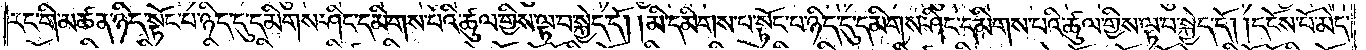རང་གི་མཚན་ཉིད་སྟོང་པ་ཉིད་དུ་དམིགས་ཤིང་དམིགས་པའི་ཚུལ་གྱིས་ལྟ་བ་སྐྱེད་དོ། །མི་དམིགས་པ་སྟོང་པ་ཉིད་དུ་དམིགས་ཤིང་དམིགས་པའི་ཚུལ་གྱིས་ལྟ་བ་སྐྱེད་དོ། །དངོས་པོ་མེད་
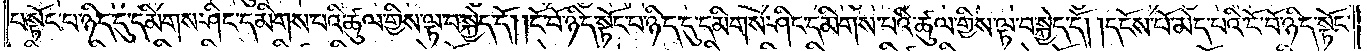པ་སྟོང་པ་ཉིད་དུ་དམིགས་ཤིང་དམིགས་པའི་ཚུལ་གྱིས་ལྟ་བ་སྐྱེད་དོ། །ངོ་བོ་ཉིད་སྟོང་པ་ཉིད་དུ་དམིགས་ཤིང་དམིགས་པའི་ཚུལ་གྱིས་ལྟ་བ་སྐྱེད་དོ། །དངོས་པོ་མེད་པའི་ངོ་བོ་ཉིད་སྟོང་
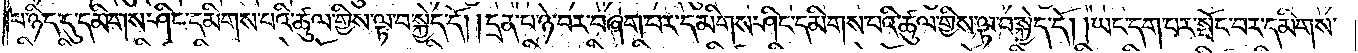པ་ཉིད་དུ་དམིགས་ཤིང་དམིགས་པའི་ཚུལ་གྱིས་ལྟ་བ་སྐྱེད་དོ། །དྲན་པ་ཉེ་བར་བཞག་པར་དམིགས་ཤིང་དམིགས་པའི་ཚུལ་གྱིས་ལྟ་བ་སྐྱེད་དོ། །ཡང་དག་པར་སྤོང་བར་དམིགས་
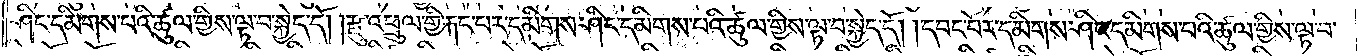ཤིང་དམིགས་པའི་ཚུལ་གྱིས་ལྟ་བ་སྐྱེད་དོ། །རྫུ་འཕྲུལ་གྱི་རྐང་པར་དམིགས་ཤིང་དམིགས་པའི་ཚུལ་གྱིས་ལྟ་བ་སྐྱེད་དོ། །དབང་པོར་དམིགས་ཤིང་དམིགས་པའི་ཚུལ་གྱིས་ལྟ་བ་
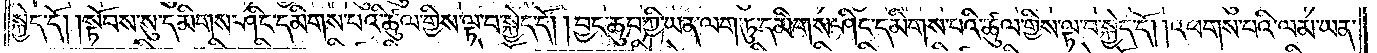སྐྱེད་དོ། །སྟོབས་སུ་དམིགས་ཤིང་དམིགས་པའི་ཚུལ་གྱིས་ལྟ་བ་སྐྱེད་དོ། །བྱང་ཆུབ་ཀྱི་ཡན་ལག་ཏུ་དམིགས་ཤིང་དམིགས་པའི་ཚུལ་གྱིས་ལྟ་བ་སྐྱེད་དོ། །འཕགས་པའི་ལམ་ཡན་
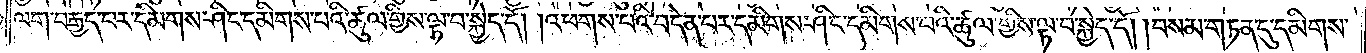ལག་བརྒྱད་པར་དམིགས་ཤིང་དམིགས་པའི་ཚུལ་གྱིས་ལྟ་བ་སྐྱེད་དོ། །འཕགས་པའི་བདེན་པར་དམིགས་ཤིང་དམིགས་པའི་ཚུལ་གྱིས་ལྟ་བ་སྐྱེད་དོ། །བསམ་གཏན་དུ་དམིགས་
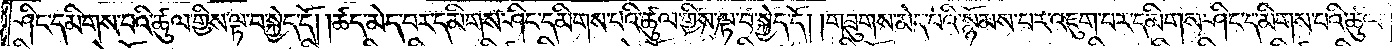ཤིང་དམིགས་པའི་ཚུལ་གྱིས་ལྟ་བ་སྐྱེད་དོ། །ཚད་མེད་པར་དམིགས་ཤིང་དམིགས་པའི་ཚུལ་གྱིས་ལྟ་བ་སྐྱེད་དོ། །གཟུགས་མེད་པའི་སྙོམས་པར་འཇུག་པར་དམིགས་ཤིང་དམིགས་པའི་ཚུལ་
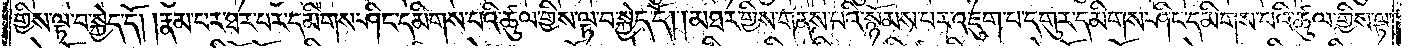གྱིས་ལྟ་བ་སྐྱེད་དོ། །རྣམ་པར་ཐར་པར་དམིགས་ཤིང་དམིགས་པའི་ཚུལ་གྱིས་ལྟ་བ་སྐྱེད་དོ། །མཐར་གྱིས་གནས་པའི་སྙོམས་པར་འཇུག་པ་དགུར་དམིགས་ཤིང་དམིགས་པའི་ཚུལ་གྱིས་ལྟ་
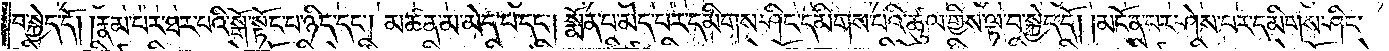བ་སྐྱེད་དོ། །རྣམ་པར་ཐར་པའི་སྒོ་སྟོང་པ་ཉིད་དང༌། མཚན་མ་མེད་པ་དང༌། སྨོན་པ་མེད་པར་དམིགས་ཤིང་དམིགས་པའི་ཚུལ་གྱིས་ལྟ་བ་སྐྱེད་དོ། །མངོན་པར་ཤེས་པར་དམིགས་ཤིང་
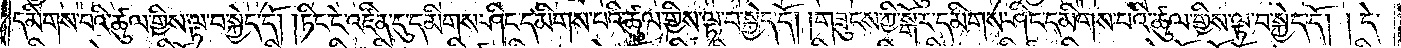དམིགས་པའི་ཚུལ་གྱིས་ལྟ་བ་སྐྱེད་དོ། །ཏིང་ངེ་འཛིན་དུ་དམིགས་ཤིང་དམིགས་པའི་ཚུལ་གྱིས་ལྟ་བ་སྐྱེད་དོ། །གཟུངས་ཀྱི་སྒོར་དམིགས་ཤིང་དམིགས་པའི་ཚུལ་གྱིས་ལྟ་བ་སྐྱེད་དོ། །དེ་
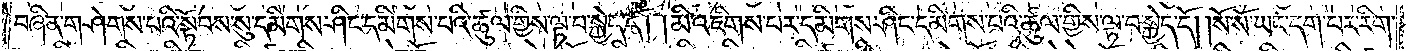བཞིན་གཤེགས་པའི་སྟོབས་སུ་དམིགས་ཤིང་དམིགས་པའི་ཚུལ་གྱིས་ལྟ་བ་སྐྱེད་དོ། །མི་འཇིགས་པར་དམིགས་ཤིང་དམིགས་པའི་ཚུལ་གྱིས་ལྟ་བ་སྐྱེད་དོ། །སོ་སོ་ཡང་དག་པར་རིག་
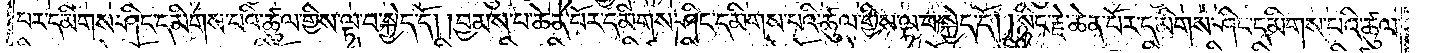པར་དམིགས་ཤིང་དམིགས་པའི་ཚུལ་གྱིས་ལྟ་བ་སྐྱེད་དོ། །བྱམས་པ་ཆེན་པོར་དམིགས་ཤིང་དམིགས་པའི་ཚུལ་གྱིས་ལྟ་བ་སྐྱེད་དོ། །སྙིང་རྗེ་ཆེན་པོར་དམིགས་ཤིང་དམིགས་པའི་ཚུལ་
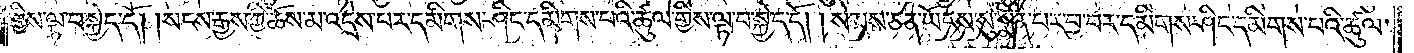གྱིས་ལྟ་བ་སྐྱེད་དོ། །སངས་རྒྱས་ཀྱི་ཆོས་མ་འདྲེས་པར་དམིགས་ཤིང་དམིགས་པའི་ཚུལ་གྱིས་ལྟ་བ་སྐྱེད་དོ། །སེམས་ཅན་ཡོངས་སུ་སྨིན་པར་བྱ་བར་དམིགས་ཤིང་དམིགས་པའི་ཚུལ་
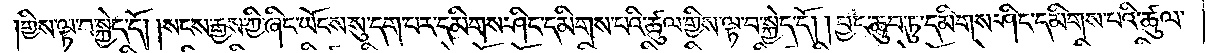གྱིས་ལྟ་བ་སྐྱེད་དོ། །སངས་རྒྱས་ཀྱི་ཞིང་ཡོངས་སུ་དག་པར་དམིགས་ཤིང་དམིགས་པའི་ཚུལ་གྱིས་ལྟ་བ་སྐྱེད་དོ། །བྱང་ཆུབ་ཏུ་དམིགས་ཤིང་དམིགས་པའི་ཚུལ་
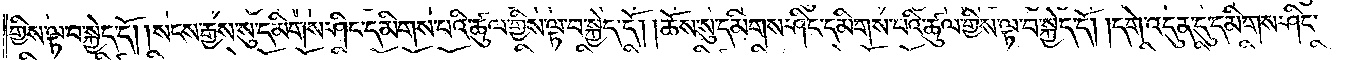གྱིས་ལྟ་བ་སྐྱེད་དོ། །སངས་རྒྱས་སུ་དམིགས་ཤིང་དམིགས་པའི་ཚུལ་གྱིས་ལྟ་བ་སྐྱེད་དོ། །ཆོས་སུ་དམིགས་ཤིང་དམིགས་པའི་ཚུལ་གྱིས་ལྟ་བ་སྐྱེད་དོ། །དགེ་འདུན་དུ་དམིགས་ཤིང་
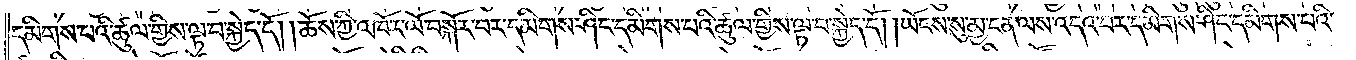དམིགས་པའི་ཚུལ་གྱིས་ལྟ་བ་སྐྱེད་དོ། །ཆོས་ཀྱི་འཁོར་ལོ་བསྐོར་བར་དམིགས་ཤིང་དམིགས་པའི་ཚུལ་གྱིས་ལྟ་བ་སྐྱེད་དོ། །ཡོངས་སུ་མྱ་ངན་ལས་འདའ་བར་དམིགས་ཤིང་དམིགས་པའི་
